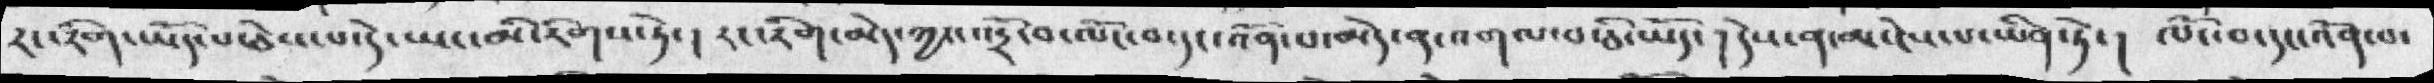རང་རིག་ཡོད་ཅེས་པ་དེ་ཡང་མི་རིགས་ཏེ་། རང་རིག་མེད་ཀྱང་འདྲོ་བ་ལོང་བ་དང་འོན་པ་མེད་ན་འགལ་བ་ཅི་ཡོད་། དེས་ན་མ་ངེས་པ་ཡིན་ཏེ་། ལོང་བ་དང་འོན་པ་
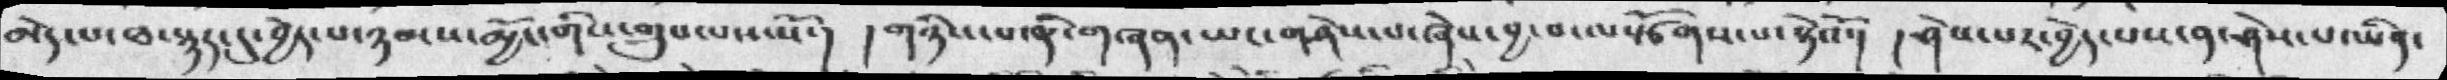མེད་པ་ཐ་སྙད་དུ་བྱེད་པ་ཉམས་མྱོང་གིས་གྲུབ་པས་སོ་། །གཉིས་པ་ནི་གཞན་ཡང་གཤེས་པ་ཞེས་བྱ་བ་ལསྩོགས་པ་སྟེའོ་། །ཤེས་པར་བྱེད་པས་ན་ཤེས་པ་ཡིན་
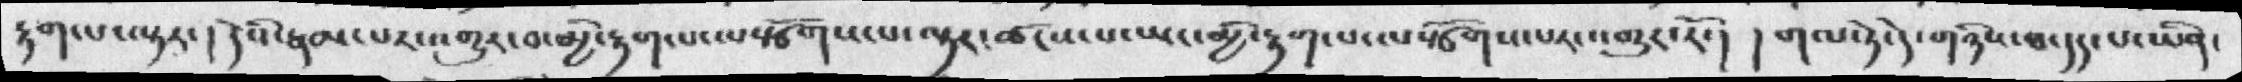རྟག་པ་ལྟར་། དེའི་རྣམ་པར་འགྱུར་བ་མྱི་རྟག་པ་ལསྩོགས་པ་ལྟར་ཚངས་པ་ཡང་མྱི་རྟག་པ་ལསྩོགས་པར་འགྱུར་རོ་། །གལ་ཏེ་དེ་གཉིས་ཐ་དད་པ་ཡིན་
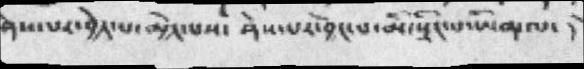ཤེས་པར་བྱེད་པ་མྱེད་པས་  ཤེས་པར་བྱེད་པ་མི་སྲིད་པ་ཡིན་ལ་།
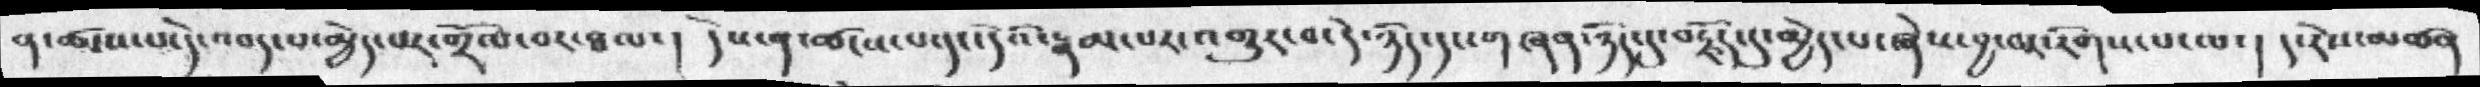ན་ཚངས་པ་དེ་འབད་པ་མྱེད་པར་གྲོལ་བར་ཐལ་། དེས་ན་ཚངས་པ་དང་དེའི་རྣམ་པར་འགྱུར་བ་དེ་ཉིད་དང་གཞན་ཉིད་དུ་བརྗོད་དུ་མྱེད་པ་ཞེས་བྱ་བར་རིགས་པ་ལ་། ད་རེས་མཚན
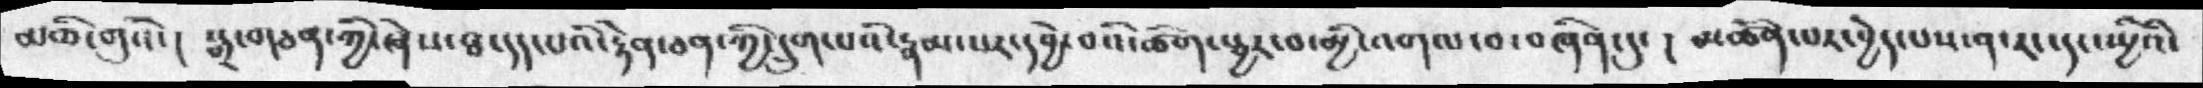མཆོ་གུའོ་།  སྒྲ་གཅན་ཀྱི་ཞེས་ཐ་དད་པའི་རྟེན་ཅན་ཀྱི་དྲུག་པའི་རྣམ་པར་དབྱེ་བའི་ཚིག་སྦྱར་བ་མྱི་འགལ་བ་བཞིན་དུ་། མཚོན་པར་བྱེད་པས་ན་རང་དང་སྤྱིའི་
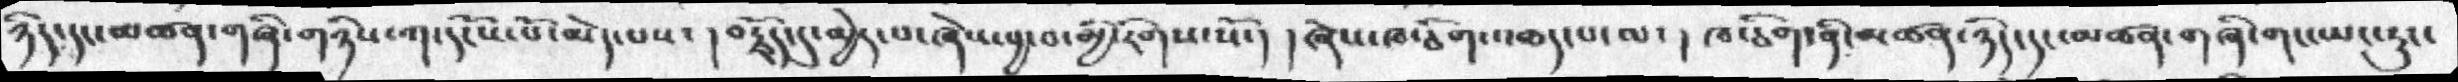ཉིད་དང་མཚན་གཞི་གཉིས་ཀ་དངོས་པོ་མེད་པས་། བརྗོད་དུ་མྱེད་པ་ཞེས་བྱ་བ་མྱི་རིགས་སོ་།  །ཞེས་ཁ་ཅིག་འཆད་པ་ལ་། ཁ་ཅིག་ནི་མཚན་ཉིད་དང་མཚན་གཞི་གང་ཡང་རུང་
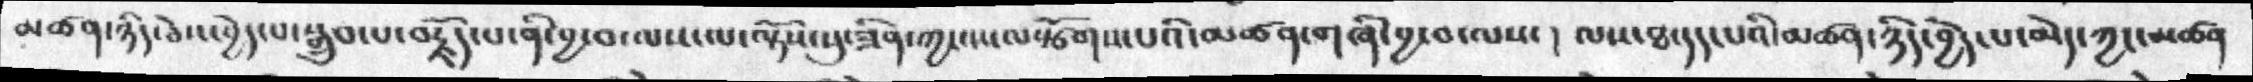མཚན་ཉིད་ཅེས་བྱེད་པ་སྒྲུབ་པ་བརྗོད་པ་ནི་བྱ་བ་ལས་ལ་ལྟོས་སུ་ཟིན་ཀྱང་ས་ལསྩོགས་པའི་མཚན་གཞི་བྱ་བ་ལས་།  ལས་ཐ་དད་པའི་མཚན་ཉིད་བྱེད་པ་མེད་ཀྱང་མཚན
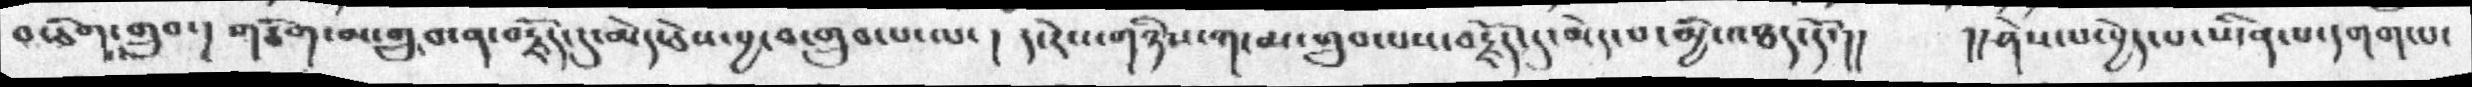བ་ཅིག་གྲུབ་། གཅིག་མ་གྲུབ་ན་བརྗོད་དུ་མེད་ཅེས་བྱ་བ་གྲུབ་པ་ལ་།  ད་རེས་གཉིས་ཀ་མ་གྲུབ་པས་བརྗོད་དུ་མེད་པ་མྱི་འཐད་དོ་།།  །།ཤེས་པ་བྱེད་པ་ཡིན་པ་དགག་པ་
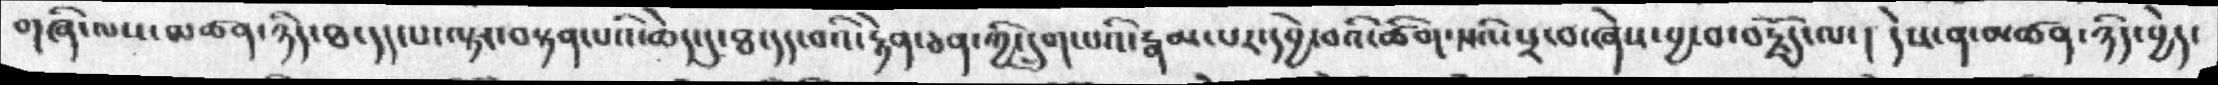གཞི་ལས་མཚན་ཉིད་ཐ་དད་པ་ལྟར་བསྟན་པའི་ཆེད་དུ་ཐ་དད་བའི་རྟེན་ཅན་ཀྱི་དྲུག་པའི་རྣམ་པར་དབྱེ་བའི་ཚིག་སའི་ཕྲ་བ་ཞེས་བྱ་བ་བརྗོད་ལ་། དེས་ན་མཚན་ཉིད་བྱེད་
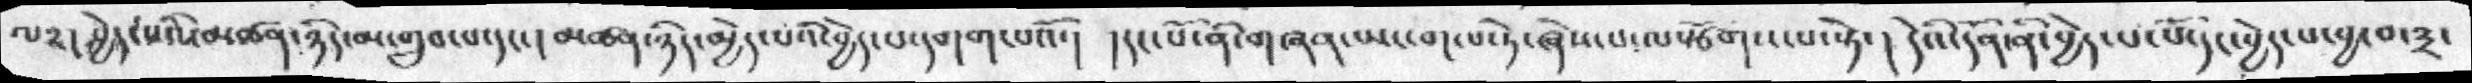ལ༢། བྱེད་པའི་མཚན་ཉིད་མ་གྲུབ་པ་དང་། མཚན་ཉིད་མྱེད་པའི་བྱེད་པ་དགག་པའོ་།  །དང་པོ་ནི་གཞན་ཡང་གལ་ཏེ་ཞེས་པ་ལསྩོགས་པ་སྟེ་། དེའི་དོན་ནི་བྱེད་པ་པོ་དང་བྱེད་པ་བྱ་བ་༣་
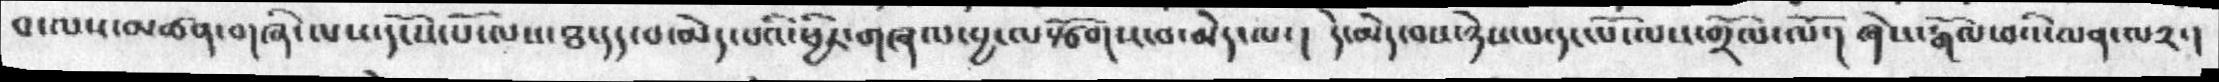བ་ལས་མཚན་གཞི་ལས་དངོས་པོ་ལས་ཐ་དད་པ་མེད་པའི་ཕྱིར་གཞལ་བྱ་ལསྩོགས་བ་མེད་ལ་། དེ་མེད་བས་ཉེས་པ་དང་པོ་ལས་གྲོལ་ལོ་།  ཞེས་རྒོལ་བའི་ལན་ལ༢་།
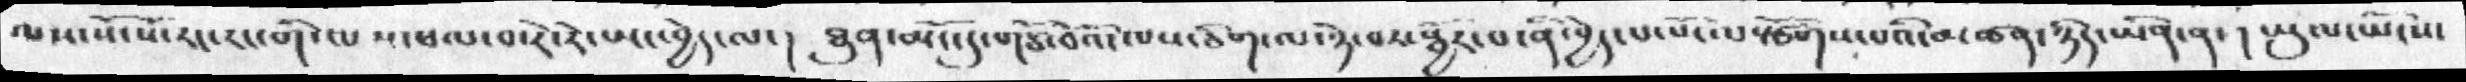ལས་སོ་སོ་རང་རང་གི་ལས་ཕལ་བ་རེ་རེ་ཡང་བྱེད་ལ་།  ཐུན་མོང་དུ་གཙོ་བོའི་ལས་ཅིག་ལ་ཉེ་བར་སྦྱོར་བ་ནི་བྱེད་པ་པོ་ལསྩོགས་པའི་མཚན་ཉིད་ཡིན་ན་། ཡུལ་ཡོངས་
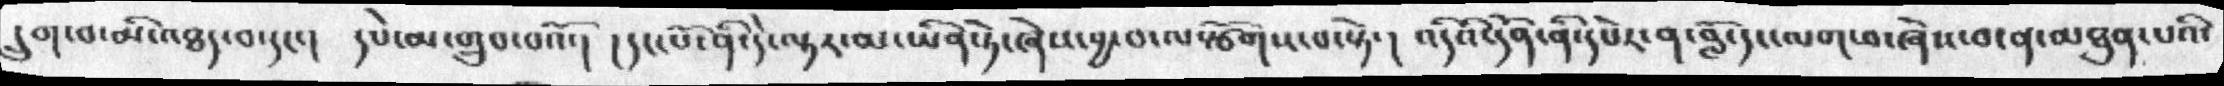དྲུག་པ་མི་འཐད་བ་དང་།  དཔེ་མ་གྲུབ་བའོ་། །དང་པོ་ནི་དེ་ལྟར་མ་ཡིན་ཏེ་ཞེས་བྱ་བ་ལསྩོགས་པ་སྟེ་། འདིའི་དོན་ནི་དཔེར་ན་བློ་དང་ལག་བ་ཞེས་བ་ན་མཐུན་པའི་
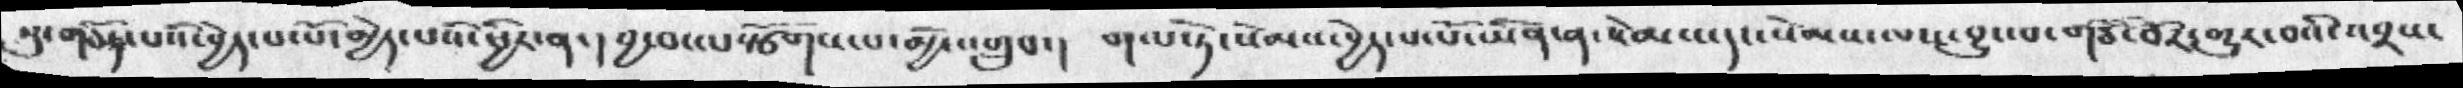སུ་གཅོད་པའི་བྱེད་པ་པོ་མྱེད་པའི་ཕྱིར་ན་། བྱ་བ་ལསྩོགས་པ་མྱི་འགྲུབ་།  གལ་ཏེ་སེམས་བྱེད་པ་པོ་ཡིན་ན་སེམས་དང་སེམས་ལས་བྱུང་བ་གཙོ་བོར་གྱུར་བའི་འབྲས་
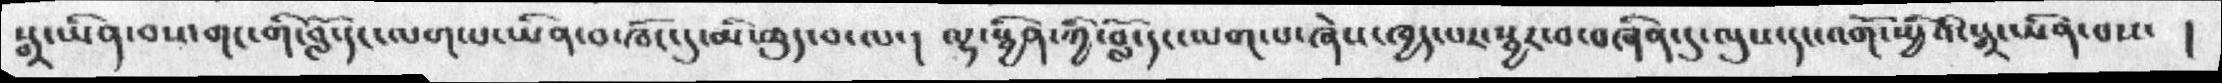སྒྲ་ཡིན་བས་གང་གི་བློ་དང་ལག་པ་ཡིན་བ་ཁོང་དུ་མི་ཆུད་བ་ལ་།  ལྷ་སྦྱིན་ཀྱི་བློ་དང་ལག་པ་ཞེས་ཁྱད་པར་སྦྱར་བ་བཞིན་དུ་ལུས་དང་འགོ་སྤྱིའི་སྒྲ་ཡིན་པས་ །
